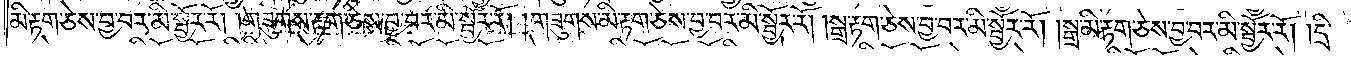མི་རྟག་ཅེས་བྱ་བར་མི་སྦྱོར་རོ། །གཟུགས་རྟག་ཅེས་བྱ་བར་མི་སྦྱོར་རོ། །གཟུགས་མི་རྟག་ཅེས་བྱ་བར་མི་སྦྱོར་རོ། །སྒྲ་རྟག་ཅེས་བྱ་བར་མི་སྦྱོར་རོ། །སྒྲ་མི་རྟག་ཅེས་བྱ་བར་མི་སྦྱོར་རོ། །དྲི་
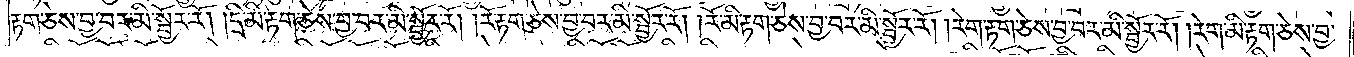རྟག་ཅེས་བྱ་བར་མི་སྦྱོར་རོ། །དྲི་མི་རྟག་ཅེས་བྱ་བར་མི་སྦྱོར་རོ། །རོ་རྟག་ཅེས་བྱ་བར་མི་སྦྱོར་རོ། །རོ་མི་རྟག་ཅེས་བྱ་བར་མི་སྦྱོར་རོ། །རེག་རྟག་ཅེས་བྱ་བར་མི་སྦྱོར་རོ། །རེག་མི་རྟག་ཅེས་བྱ་
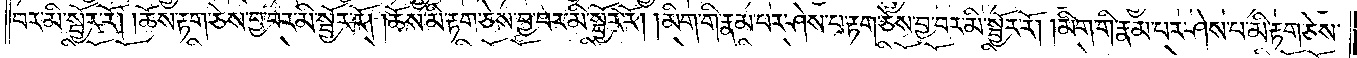བར་མི་སྦྱོར་རོ། །ཆོས་རྟག་ཅེས་བྱ་བར་མི་སྦྱོར་རོ། །ཆོས་མི་རྟག་ཅེས་བྱ་བར་མི་སྦྱོར་རོ། །མིག་གི་རྣམ་པར་ཤེས་པ་རྟག་ཅེས་བྱ་བར་མི་སྦྱོར་རོ། །མིག་གི་རྣམ་པར་ཤེས་པ་མི་རྟག་ཅེས་
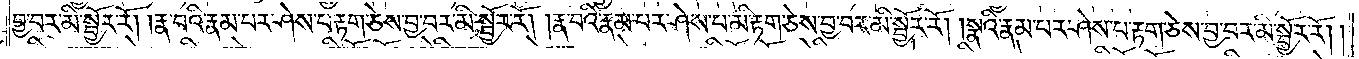བྱ་བར་མི་སྦྱོར་རོ། །རྣ་བའི་རྣམ་པར་ཤེས་པ་རྟག་ཅེས་བྱ་བར་མི་སྦྱོར་རོ། །རྣ་བའི་རྣམ་པར་ཤེས་པ་མི་རྟག་ཅེས་བྱ་བར་མི་སྦྱོར་རོ། །སྣའི་རྣམ་པར་ཤེས་པ་རྟག་ཅེས་བྱ་བར་མི་སྦྱོར་རོ། །
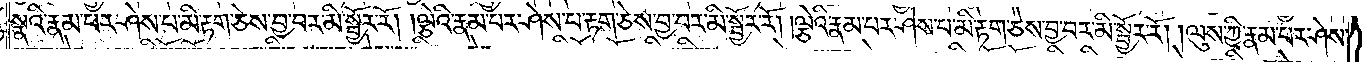སྣའི་རྣམ་པར་ཤེས་པ་མི་རྟག་ཅེས་བྱ་བར་མི་སྦྱོར་རོ། །ལྕེའི་རྣམ་པར་ཤེས་པ་རྟག་ཅེས་བྱ་བར་མི་སྦྱོར་རོ། །ལྕེའི་རྣམ་པར་ཤེས་པ་མི་རྟག་ཅེས་བྱ་བར་མི་སྦྱོར་རོ། །ལུས་ཀྱི་རྣམ་པར་ཤེས་
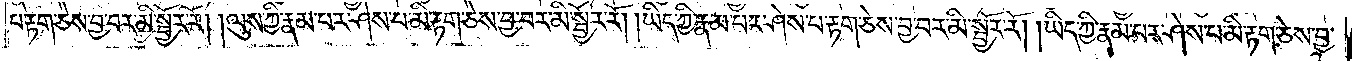པ་རྟག་ཅེས་བྱ་བར་མི་སྦྱོར་རོ། །ལུས་ཀྱི་རྣམ་པར་ཤེས་པ་མི་རྟག་ཅེས་བྱ་བར་མི་སྦྱོར་རོ། །ཡིད་ཀྱི་རྣམ་པར་ཤེས་པ་རྟག་ཅེས་བྱ་བར་མི་སྦྱོར་རོ། །ཡིད་ཀྱི་རྣམ་པར་ཤེས་པ་མི་རྟག་ཅེས་བྱ་
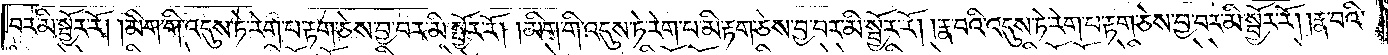བར་མི་སྦྱོར་རོ། །མིག་གི་འདུས་ཏེ་རེག་པ་རྟག་ཅེས་བྱ་བར་མི་སྦྱོར་རོ། །མིག་གི་འདུས་ཏེ་རེག་པ་མི་རྟག་ཅེས་བྱ་བར་མི་སྦྱོར་རོ། །རྣ་བའི་འདུས་ཏེ་རེག་པ་རྟག་ཅེས་བྱ་བར་མི་སྦྱོར་རོ། །རྣ་བའི་
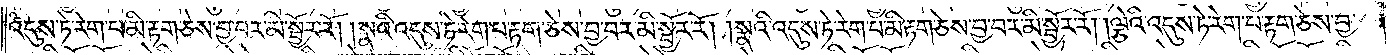འདུས་ཏེ་རེག་པ་མི་རྟག་ཅེས་བྱ་བར་མི་སྦྱོར་རོ། །སྣའི་འདུས་ཏེ་རེག་པ་རྟག་ཅེས་བྱ་བར་མི་སྦྱོར་རོ། །སྣའི་འདུས་ཏེ་རེག་པ་མི་རྟག་ཅེས་བྱ་བར་མི་སྦྱོར་རོ། །ལྕེའི་འདུས་ཏེ་རེག་པ་རྟག་ཅེས་བྱ་
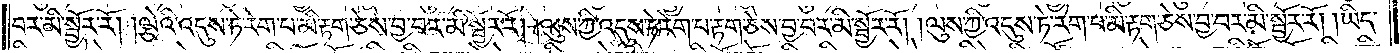བར་མི་སྦྱོར་རོ། །ལྕེའི་འདུས་ཏེ་རེག་པ་མི་རྟག་ཅེས་བྱ་བར་མི་སྦྱོར་རོ། །ལུས་ཀྱི་འདུས་ཏེ་རེག་པ་རྟག་ཅེས་བྱ་བར་མི་སྦྱོར་རོ། །ལུས་ཀྱི་འདུས་ཏེ་རེག་པ་མི་རྟག་ཅེས་བྱ་བར་མི་སྦྱོར་རོ། །ཡིད་
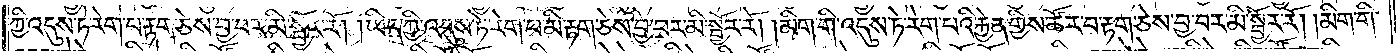ཀྱི་འདུས་ཏེ་རེག་པ་རྟག་ཅེས་བྱ་བར་མི་སྦྱོར་རོ། །ཡིད་ཀྱི་འདུས་ཏེ་རེག་པ་མི་རྟག་ཅེས་བྱ་བར་མི་སྦྱོར་རོ། །མིག་གི་འདུས་ཏེ་རེག་པའི་རྐྱེན་གྱིས་ཚོར་བ་རྟག་ཅེས་བྱ་བར་མི་སྦྱོར་རོ། །མིག་གི་
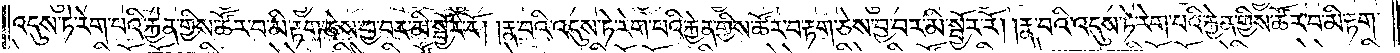འདུས་ཏེ་རེག་པའི་རྐྱེན་གྱིས་ཚོར་བ་མི་རྟག་ཅེས་བྱ་བར་མི་སྦྱོར་རོ། །རྣ་བའི་འདུས་ཏེ་རེག་པའི་རྐྱེན་གྱིས་ཚོར་བ་རྟག་ཅེས་བྱ་བར་མི་སྦྱོར་རོ། །རྣ་བའི་འདུས་ཏེ་རེག་པའི་རྐྱེན་གྱིས་ཚོར་བ་མི་རྟག་
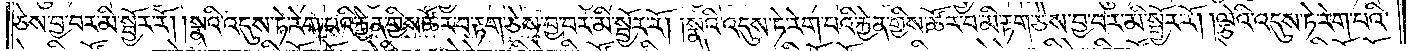ཅེས་བྱ་བར་མི་སྦྱོར་རོ། །སྣའི་འདུས་ཏེ་རེག་པའི་རྐྱེན་གྱིས་ཚོར་བ་རྟག་ཅེས་བྱ་བར་མི་སྦྱོར་རོ། །སྣའི་འདུས་ཏེ་རེག་པའི་རྐྱེན་གྱིས་ཚོར་བ་མི་རྟག་ཅེས་བྱ་བར་མི་སྦྱོར་རོ། །ལྕེའི་འདུས་ཏེ་རེག་པའི་
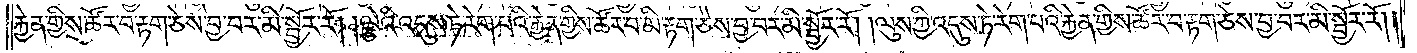རྐྱེན་གྱིས་ཚོར་བ་རྟག་ཅེས་བྱ་བར་མི་སྦྱོར་རོ། །ལྕེའི་འདུས་ཏེ་རེག་པའི་རྐྱེན་གྱིས་ཚོར་བ་མི་རྟག་ཅེས་བྱ་བར་མི་སྦྱོར་རོ། །ལུས་ཀྱི་འདུས་ཏེ་རེག་པའི་རྐྱེན་གྱིས་ཚོར་བ་རྟག་ཅེས་བྱ་བར་མི་སྦྱོར་རོ། །
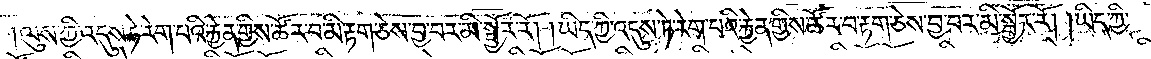ལུས་ཀྱི་འདུས་ཏེ་རེག་པའི་རྐྱེན་གྱིས་ཚོར་བ་མི་རྟག་ཅེས་བྱ་བར་མི་སྦྱོར་རོ། །ཡིད་ཀྱི་འདུས་ཏེ་རེག་པའི་རྐྱེན་གྱིས་ཚོར་བ་རྟག་ཅེས་བྱ་བར་མི་སྦྱོར་རོ། །ཡིད་ཀྱི་
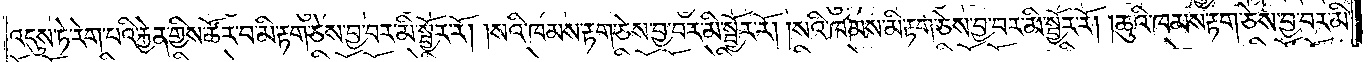འདུས་ཏེ་རེག་པའི་རྐྱེན་གྱིས་ཚོར་བ་མི་རྟག་ཅེས་བྱ་བར་མི་སྦྱོར་རོ། །སའི་ཁམས་རྟག་ཅེས་བྱ་བར་མི་སྦྱོར་རོ། །སའི་ཁམས་མི་རྟག་ཅེས་བྱ་བར་མི་སྦྱོར་རོ། །ཆུའི་ཁམས་རྟག་ཅེས་བྱ་བར་མི་
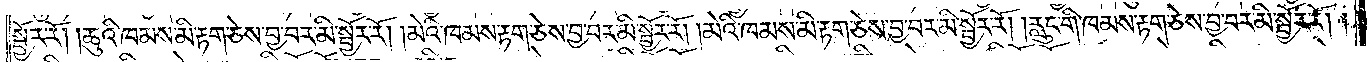སྦྱོར་རོ། །ཆུའི་ཁམས་མི་རྟག་ཅེས་བྱ་བར་མི་སྦྱོར་རོ། །མེའི་ཁམས་རྟག་ཅེས་བྱ་བར་མི་སྦྱོར་རོ། །མེའི་ཁམས་མི་རྟག་ཅེས་བྱ་བར་མི་སྦྱོར་རོ། །རླུང་གི་ཁམས་རྟག་ཅེས་བྱ་བར་མི་སྦྱོར་རོ། །
